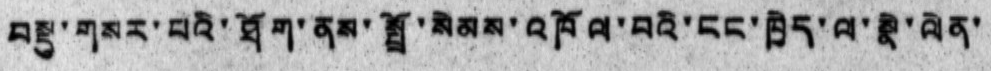བསྡུ་གསར་པའི་ཐོག་ནས་སྤྲོ་སེམས་འཁོལ་བའི་ངང་ཁྱེད་ལ་སྣེ་ལེན་
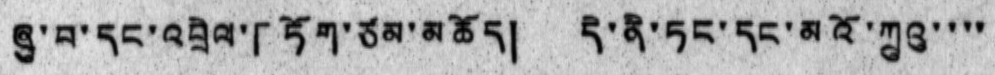ཞུ་བ་དང་འབྲེལ་「ཏོག་ཙམ་མཆོད། དེ་ནི་ཏང་དང་མའོ་ཀྲུའུ་་་་
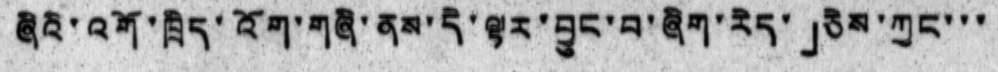ཞིའི་འགོ་ཁྲིད་འོག་གཞི་ནས་དེ་ལྟར་བྱུང་བ་ཞིག་རེད་」ཅིས་ཀྱང་་་
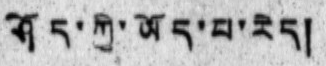ཤོད་ཀྱི་ཡོད་པ་རེད།
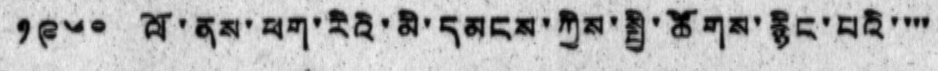༡༩༦༠ ལོ་ནས་ཕག་རིའི་མི་དམངས་ཀྱིས་སྤྱི་ཚོགས་རྙིང་པའི་་་་
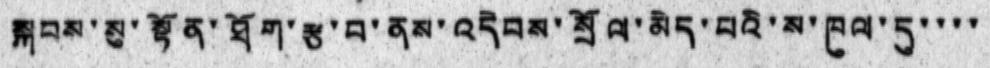སྐབས་སུ་སྟོན་ཐོག་རྩ་བ་ནམ་འདེབས་སྲོལ་མེད་པའི་ས་ཁུལ་དུ་་་་
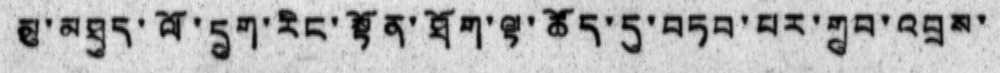མུ་མཐུད་ལོ་དྲུག་རིང་སྟོན་ཐོག་ལྟ་ཚོད་དུ་བཏབ་པར་གྲུབ་འབྲས་
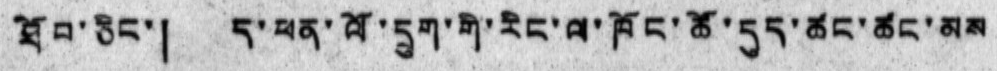ཐོབ་ཅིང་། ད་ཕན་ལོ་དྲུག་གི་རིང་ལ་ཁོང་ཚོ་དུད་ཚང་ཚང་མས
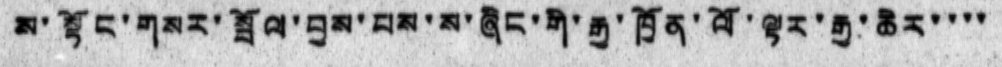ས་སྟོང་གསར་སྤོས་བྱས་པས་ས་ཞིང་གི་རྒྱ་ཁྱོན་ལོ་ལྟར་རྒྱ་ཆེར་་་་
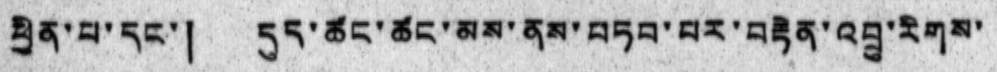ཕྱིན་པ་དང་། དུད་ཚང་ཚང་མས་ནམ་བཏབ་པར་བརྟེན་འབྲུ་རིགས་
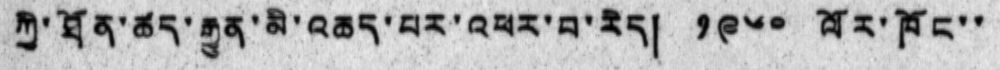ཀྱི་ཐོན་ཚད་རྒྱུན་མི་འཆད་པར་འཕར་བ་རེད། ༡༠༦༠ ལོར་ཁོང་་
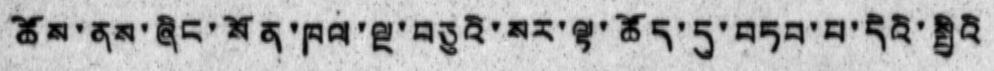ཚོས་ནས་ཞིང་སོན་ཁལ་ལྔ་བཅུའི་སར་ལྟ་ཚོད་དུ་བཏབ་བ་དེའི་སྤྱིའི
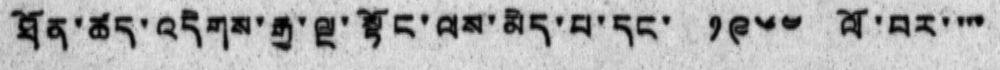ཐོན་ཚད་འདེགས་རྒྱ་ལྔ་སྟོང་ལས་མེད་པ་དང་ ༡༩༦༤ ལོ་བར་་་་
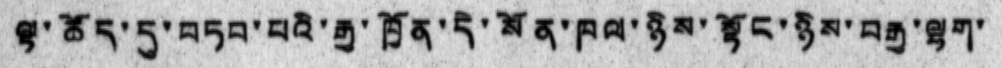ལྟ་ཚོད་དུ་བཏབ་པའི་རྒྱ་ཁྱོན་དེ་སོན་ཁལ་ཉིས་སྟོང་ཉིས་བརྒྱ་ལྷག་
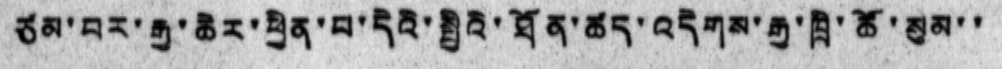ཙམ་བར་རྒྱ་ཆེར་ཕྱིན་པ་དེའི་སྤྱིའི་ཐོན་ཚད་འདེགས་རྒྱ་ཁྲི་ཚོ་སུམ་་
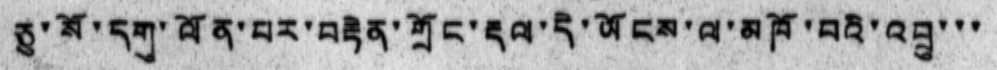ཅུ་སོ་དགུ་ལོན་པར་བརྟེན་གྲོང་རྡལ་དེ་ཡོངས་ལ་མཁོ་བའི་འབྲུ་་་
